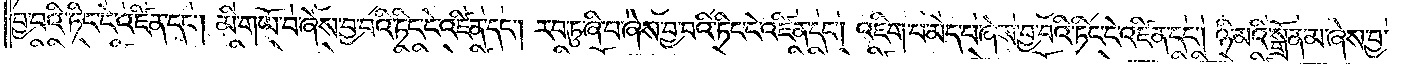བྱ་བའི་ཏིང་ངེ་འཛིན་དང༌། མི་གཡོ་བ་ཞེས་བྱ་བའི་ཏིང་ངེ་འཛིན་དང༌། རབ་ཏུ་ཞི་བ་ཞེས་བྱ་བའི་ཏིང་ངེ་འཛིན་དང༌། འཇིག་པ་མེད་པ་ཞེས་བྱ་བའི་ཏིང་ངེ་འཛིན་དང༌། ཉི་མའི་སྒྲོན་མ་ཞེས་བྱ་
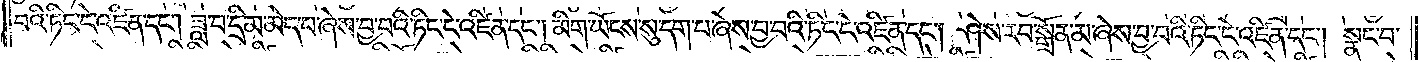བའི་ཏིང་ངེ་འཛིན་དང༌། ཟླ་བ་དྲི་མ་མེད་པ་ཞེས་བྱ་བའི་ཏིང་ངེ་འཛིན་དང༌། མིག་ཡོངས་སུ་དག་པ་ཞེས་བྱ་བའི་ཏིང་ངེ་འཛིན་དང༌། ཤེས་རབ་སྒྲོན་མ་ཞེས་བྱ་བའི་ཏིང་ངེ་འཛིན་དང༌། སྣང་བ་
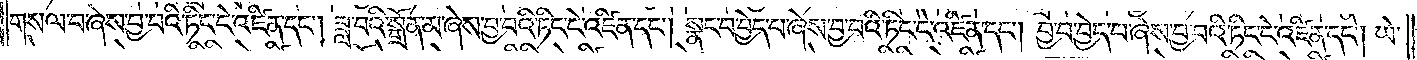གསལ་བ་ཞེས་བྱ་བའི་ཏིང་ངེ་འཛིན་དང༌། ཟླ་བའི་སྒྲོན་མ་ཞེས་བྱ་བའི་ཏིང་ངེ་འཛིན་དང༌། སྣང་བ་བྱེད་པ་ཞེས་བྱ་བའི་ཏིང་ངེ་འཛིན་དང༌། བྱ་བ་བྱེད་པ་ཞེས་བྱ་བའི་ཏིང་ངེ་འཛིན་དང༌། ཡེ་
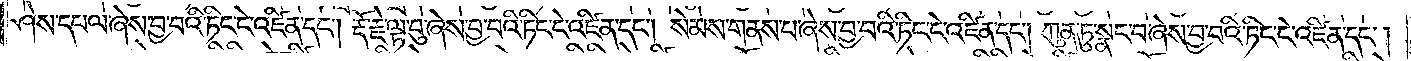ཤེས་དཔལ་ཞེས་བྱ་བའི་ཏིང་ངེ་འཛིན་དང༌། རྡོ་རྗེ་ལྟ་བུ་ཞེས་བྱ་བའི་ཏིང་ངེ་འཛིན་དང༌། སེམས་གནས་པ་ཞེས་བྱ་བའི་ཏིང་ངེ་འཛིན་དང༌། ཀུན་ཏུ་སྣང་བ་ཞེས་བྱ་བའི་ཏིང་ངེ་འཛིན་དང༌།
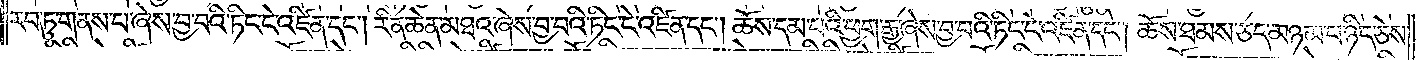རབ་ཏུ་གནས་པ་ཞེས་བྱ་བའི་ཏིང་ངེ་འཛིན་དང༌། རིན་ཆེན་མཐའ་ཞེས་བྱ་བའི་ཏིང་ངེ་འཛིན་དང༌། ཆོས་དམ་པའི་ཕྱག་རྒྱ་ཞེས་བྱ་བའི་ཏིང་ངེ་འཛིན་དང༌། ཆོས་ཐམས་ཅད་མཉམ་པ་ཉིད་ཅེས་
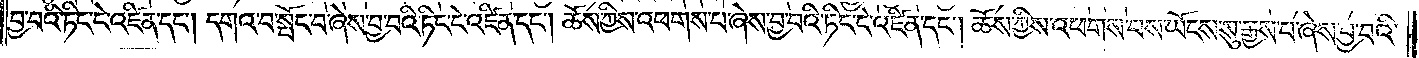བྱ་བའི་ཏིང་ངེ་འཛིན་དང༌། དགའ་བ་སྤོང་བ་ཞེས་བྱ་བའི་ཏིང་ངེ་འཛིན་དང༌། ཆོས་ཀྱིས་འཕགས་པ་ཞེས་བྱ་བའི་ཏིང་ངེ་འཛིན་དང༌། ཆོས་ཀྱིས་འཕགས་པས་ཡོངས་སུ་རྒྱས་པ་ཞེས་བྱ་བའི་
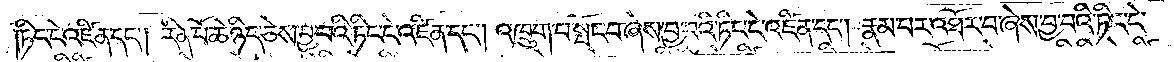ཏིང་ངེ་འཛིན་དང༌། རིན་པོ་ཆེ་ཉིད་ཅེས་བྱ་བའི་ཏིང་ངེ་འཛིན་དང༌། འཁྲུག་པ་སྤོང་བ་ཞེས་བྱ་བའི་ཏིང་ངེ་འཛིན་དང༌། རྣམ་པར་འཐོར་བ་ཞེས་བྱ་བའི་ཏིང་ངེ་
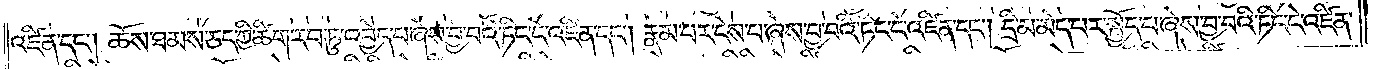འཛིན་དང༌། ཆོས་ཐམས་ཅད་ཀྱི་ཚིག་རབ་ཏུ་འབྱེད་པ་ཞེས་བྱ་བའི་ཏིང་ངེ་འཛིན་དང༌། རྣམ་པར་ངེས་པ་ཞེས་བྱ་བའི་ཏིང་ངེ་འཛིན་དང༌། དྲི་མ་མེད་པར་སྤྱོད་པ་ཞེས་བྱ་བའི་ཏིང་ངེ་འཛིན་
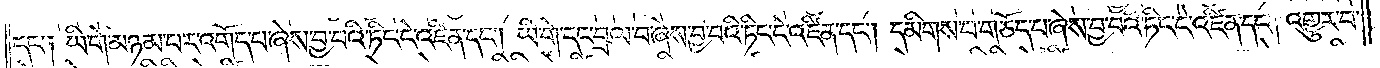དང༌། ཡི་གེ་མཉམ་པར་འགོད་པ་ཞེས་བྱ་བའི་ཏིང་ངེ་འཛིན་དང༌། ཡི་གེ་དང་བྲལ་བ་ཞེས་བྱ་བའི་ཏིང་ངེ་འཛིན་དང༌། དམིགས་པ་གཅོད་པ་ཞེས་བྱ་བའི་ཏིང་ངེ་འཛིན་དང༌། འགྱུར་བ་
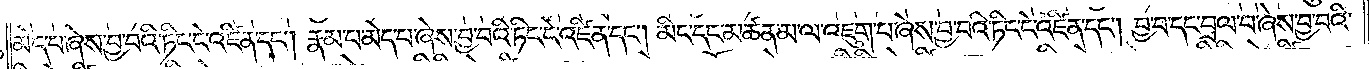མེད་པ་ཞེས་བྱ་བའི་ཏིང་ངེ་འཛིན་དང༌། རྣམ་པ་མེད་པ་ཞེས་བྱ་བའི་ཏིང་ངེ་འཛིན་དང༌། མིང་དང་མཚན་མ་ལ་འཇུག་པ་ཞེས་བྱ་བའི་ཏིང་ངེ་འཛིན་དང༌། བྱ་བ་དང་བྲལ་བ་ཞེས་བྱ་བའི་
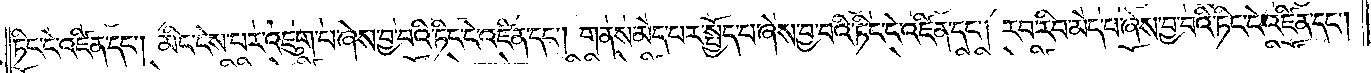ཏིང་ངེ་འཛིན་དང༌། མིང་ངེས་པར་འཇུག་པ་ཞེས་བྱ་བའི་ཏིང་ངེ་འཛིན་དང༌། གནས་མེད་པར་སྤྱོད་པ་ཞེས་བྱ་བའི་ཏིང་ངེ་འཛིན་དང༌། རབ་རིབ་མེད་པ་ཞེས་བྱ་བའི་ཏིང་ངེ་འཛིན་དང༌།
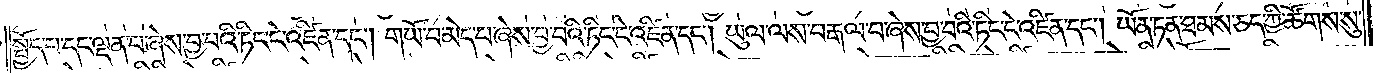སྤྱོད་པ་དང་ལྡན་པ་ཞེས་བྱ་བའི་ཏིང་ངེ་འཛིན་དང༌། གཡོ་བ་མེད་པ་ཞེས་བྱ་བའི་ཏིང་ངེ་འཛིན་དང༌། ཡུལ་ལས་བརྒལ་བ་ཞེས་བྱ་བའི་ཏིང་ངེ་འཛིན་དང༌། ཡོན་ཏན་ཐམས་ཅད་ཀྱི་ཚོགས་སུ་
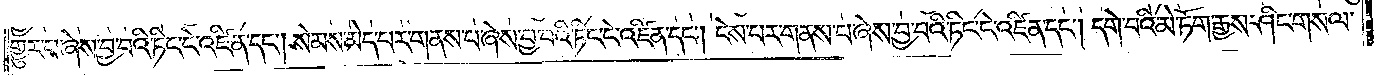གྱུར་པ་ཞེས་བྱ་བའི་ཏིང་ངེ་འཛིན་དང༌། སེམས་མེད་པར་གནས་པ་ཞེས་བྱ་བའི་ཏིང་ངེ་འཛིན་དང༌། ངེས་པར་གནས་པ་ཞེས་བྱ་བའི་ཏིང་ངེ་འཛིན་དང༌། དགེ་བའི་མེ་ཏོག་རྒྱས་ཤིང་གསལ་
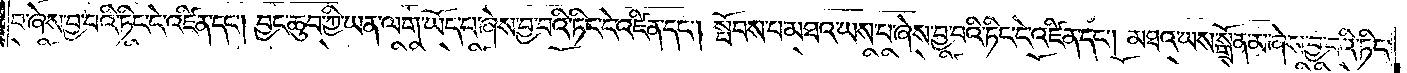བ་ཞེས་བྱ་བའི་ཏིང་ངེ་འཛིན་དང༌། བྱང་ཆུབ་ཀྱི་ཡན་ལག་ཡོད་པ་ཞེས་བྱ་བའི་ཏིང་ངེ་འཛིན་དང༌། སྤོབས་པ་མཐའ་ཡས་པ་ཞེས་བྱ་བའི་ཏིང་ངེ་འཛིན་དང༌། མཐའ་ཡས་སྒྲོན་མ་ཞེས་བྱ་བའི་ཏིང་
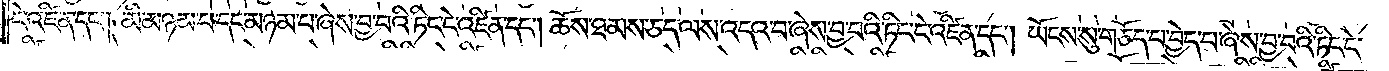ངེ་འཛིན་དང༌། མི་མཉམ་པ་དང་མཉམ་པ་ཞེས་བྱ་བའི་ཏིང་ངེ་འཛིན་དང༌། ཆོས་ཐམས་ཅད་ལས་འདའ་བ་ཞེས་བྱ་བའི་ཏིང་ངེ་འཛིན་དང༌། ཡོངས་སུ་གཅོད་པ་བྱེད་པ་ཞེས་བྱ་བའི་ཏིང་ངེ་
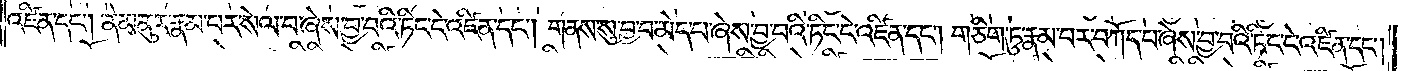འཛིན་དང༌། ནེམ་ནུར་རྣམ་པར་སེལ་བ་ཞེས་བྱ་བའི་ཏིང་ངེ་འཛིན་དང༌། གནས་སུ་བྱ་བ་མེད་པ་ཞེས་བྱ་བའི་ཏིང་ངེ་འཛིན་དང༌། གཅིག་ཏུ་རྣམ་པར་བཀོད་པ་ཞེས་བྱ་བའི་ཏིང་ངེ་འཛིན་དང༌།
